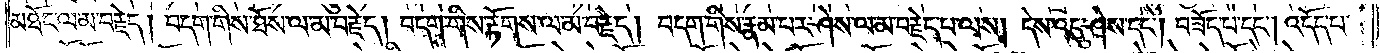མཐོང་ལ་མ་བརྗེད། བདག་གིས་ཐོས་ལ་མ་བརྗེད། བདག་གིས་རྟོགས་ལ་མ་བརྗེད། བདག་གིས་རྣམ་པར་ཤེས་ལ་མ་བརྗེད་པ་ལས། དེས་འདུ་ཤེས་དང༌། བཟོད་པ་དང༌། འདོད་པ་
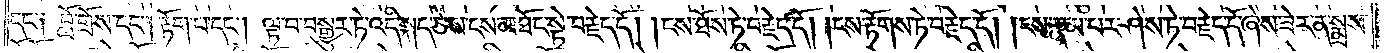དང་༑ བློ་གྲོས་དང༌། རྟོག་པ་དང༌། ལྟ་བ་བསྒྱུར་ཏེ་འདི་སྐད་ཅེས་ངས་མཐོང་སྟེ་བརྗེད་དོ། །ངས་ཐོས་ཏེ་བརྗེད་དོ། །ངས་རྟོགས་ཏེ་བརྗེད་དོ། །ངས་རྣམ་པར་ཤེས་ཏེ་བརྗེད་དོ་ཞེས་ཟེར་ན་སྨྲས་
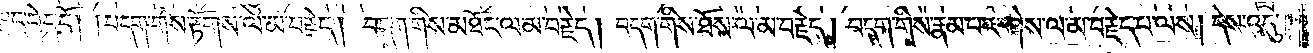སོ་ཅོག་ལྟུང་བྱེད་དོ། །བདག་གིས་རྟོགས་ལ་མ་བརྗེད། བདག་གིས་མཐོང་ལ་མ་བརྗེད། བདག་གིས་ཐོས་ལ་མ་བརྗེད། བདག་གིས་རྣམ་པར་ཤེས་ལ་མ་བརྗེད་པ་ལས། དེས་འདུ་
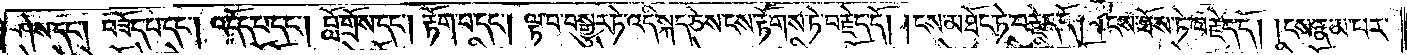ཤེས་དང༌། བཟོད་པ་དང༌། འདོད་པ་དང༌། བློ་གྲོས་དང༌། རྟོག་པ་དང༌། ལྟ་བ་བསྒྱུར་ཏེ་འདི་སྐད་ཅེས་ངས་རྟོགས་ཏེ་བརྗེད་དོ། །ངས་མཐོང་ཏེ་བརྗེད་དོ། །ངས་ཐོས་ཏེ་བརྗེད་དོ། །ངས་རྣམ་པར་
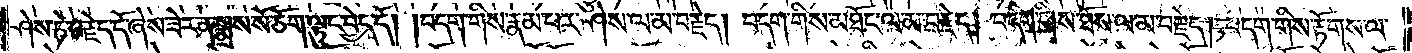ཤེས་ཏེ་བརྗེད་དོ་ཞེས་ཟེར་ན་སྨྲས་སོ་ཅོག་ལྟུང་བྱེད་དོ། །བདག་གིས་རྣམ་པར་ཤེས་ལ་མ་བརྗེད། བདག་གིས་མཐོང་ལ་མ་བརྗེད། བདག་གིས་ཐོས་ལ་མ་བརྗེད། བདག་གིས་རྟོགས་ལ་
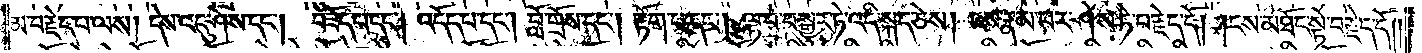མ་བརྗེད་པ་ལས། དེས་འདུ་ཤེས་དང༌། བཟོད་པ་དང༌། འདོད་པ་དང༌། བློ་གྲོས་དང༌། རྟོག་པ་དང༌། ལྟ་བ་བསྒྱུར་ཏེ་འདི་སྐད་ཅེས། ངས་རྣམ་པར་ཤེས་ཏེ་བརྗེད་དོ། །ངས་མཐོང་སྟེ་བརྗེད་དོ། །
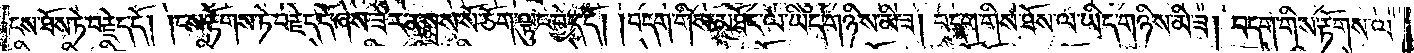ངས་ཐོས་ཏེ་བརྗེད་དོ། །ངས་རྟོགས་ཏེ་བརྗེད་དོ་ཞེས་ཟེར་ན་སྨྲས་སོ་ཅོག་ལྟུང་བྱེད་དོ། །བདག་གིས་མཐོང་ལ་ཡིད་གཉིས་མི་ཟ། བདག་གིས་ཐོས་ལ་ཡིད་གཉིས་མི་ཟ། བདག་གིས་རྟོགས་ལ་
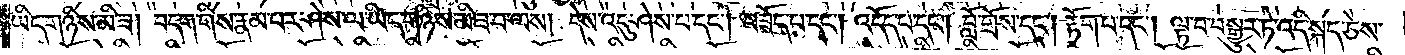ཡིད་གཉིས་མི་ཟ། བདག་གིས་རྣམ་པར་ཤེས་ལ་ཡིད་གཉིས་མི་ཟ་བ་ལས། དེས་འདུ་ཤེས་པ་དང༌། བཟོད་པ་དང༌། འདོད་པ་དང༌། བློ་གྲོས་དང༌། རྟོག་པ་དང༌། ལྟ་བ་བསྒྱུར་ཏེ་འདི་སྐད་ཅེས་
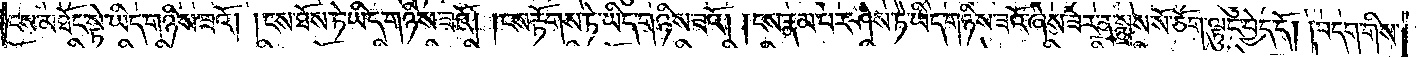ངས་མཐོང་སྟེ་ཡིད་གཉིས་ཟའོ། །ངས་ཐོས་ཏེ་ཡིད་གཉིས་ཟའོ། །ངས་རྟོགས་ཏེ་ཡིད་གཉིས་ཟའོ། །ངས་རྣམ་པར་ཤེས་ཏེ་ཡིད་གཉིས་ཟའོ་ཞེས་ཟེར་ན་སྨྲས་སོ་ཅོག་ལྟུང་བྱེད་དོ། །བདག་གིས་
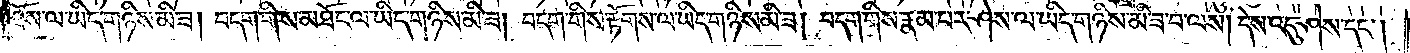ཐོས་ལ་ཡིད་གཉིས་མི་ཟ། བདག་གིས་མཐོང་ལ་ཡིད་གཉིས་མི་ཟ། བདག་གིས་རྟོགས་ལ་ཡིད་གཉིས་མི་ཟ། བདག་གིས་རྣམ་པར་ཤེས་ལ་ཡིད་གཉིས་མི་ཟ་བ་ལས། དེས་འདུ་ཤེས་དང༌།
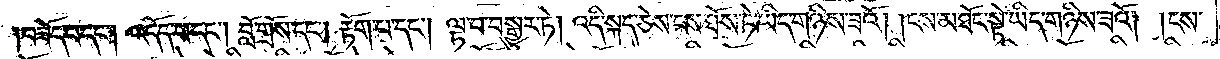།བཟོད་པ་དང༌། འདོད་པ་དང༌། བློ་གྲོས་དང༌། རྟོག་པ་དང༌། ལྟ་བ་བསྒྱུར་ཏེ། འདི་སྐད་ཅེས་ངས་ཐོས་ཏེ་ཡིད་གཉིས་ཟའོ། །ངས་མཐོང་སྟེ་ཡིད་གཉིས་ཟའོ། །ངས་
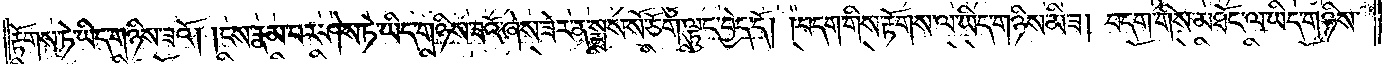རྟོགས་ཏེ་ཡིད་གཉིས་ཟའོ། །ངས་རྣམ་པར་ཤེས་ཏེ་ཡིད་གཉིས་ཟའོ་ཞེས་ཟེར་ན་སྨྲས་སོ་ཅོག་ལྟུང་བྱེད་དོ། །བདག་གིས་རྟོགས་ལ་ཡིད་གཉིས་མི་ཟ། བདག་གིས་མཐོང་ལ་ཡིད་གཉིས་
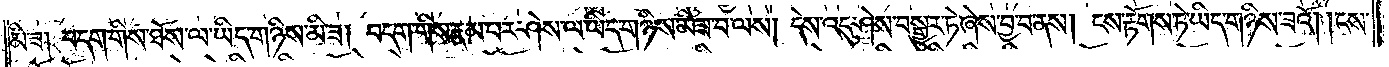མི་ཟ། བདག་གིས་ཐོས་ལ་ཡིད་གཉིས་མི་ཟ། བདག་གིས་རྣམ་པར་ཤེས་ལ་ཡིད་གཉིས་མི་ཟ་བ་ལས། དེས་འདུ་ཤེས་བསྒྱུར་ཏེ་ཞེས་བྱ་བ་ནས། ངས་རྟོགས་ཏེ་ཡིད་གཉིས་ཟའོ། །ངས་
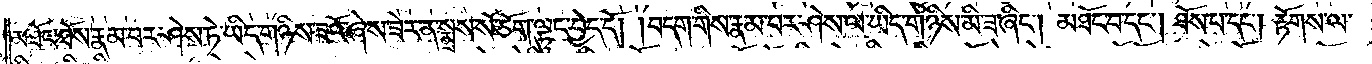མཐོང་ཐོས་རྣམ་པར་ཤེས་ཏེ་ཡིད་གཉིས་ཟའོ་ཞེས་ཟེར་ན་སྨྲས་སོ་ཅོག་ལྟུང་བྱེད་དོ། །བདག་གིས་རྣམ་པར་ཤེས་ལ་ཡིད་གཉིས་མི་ཟ་ཞིང༌། མཐོང་བ་དང༌། ཐོས་པ་དང༌། རྟོགས་ལ་
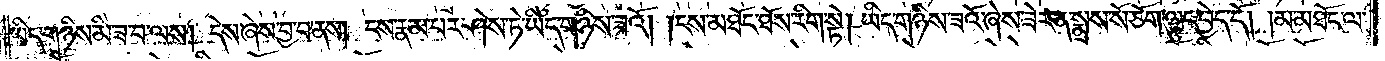ཡིད་གཉིས་མི་ཟ་བ་ལས། དེས་ཞེས་བྱ་བ་ནས། ངས་རྣམ་པར་ཤེས་ཏེ་ཡིད་གཉིས་ཟའོ། །ངས་མཐོང་ཐོས་རིག་སྟེ། ཡིད་གཉིས་ཟའོ་ཞེས་ཟེར་ན་སྨྲས་སོ་ཅོག་ལྟུང་བྱེད་དོ། །མ་མཐོང་ལ་
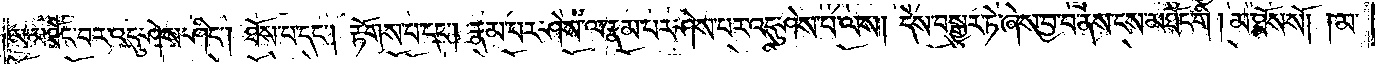མ་མཐོང་བར་འདུ་ཤེས་ཤིང༌། ཐོས་པ་དང༌། རྟོགས་པ་དང༌། རྣམ་པར་ཤེས་ལ་རྣམ་པར་ཤེས་པར་འདུ་ཤེས་པ་ལས། དེས་བསྒྱུར་ཏེ་ཞེས་བྱ་བ་ནས་ངས་མཐོང་གི །མ་ཐོས་སོ། །མ་
